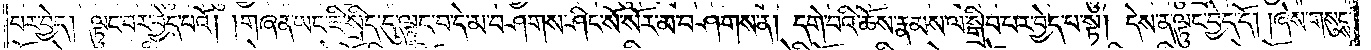པར་བྱེད། ལྟུང་བར་བྱེད་པའོ། །གཞན་ཡང་ཇི་སྲིད་དུ་ལྟུང་བ་དེ་མ་བཤགས་ཤིང་སོ་སོར་མ་བཤགས་ན། དགེ་བའི་ཆོས་རྣམས་ལ་སྒྲིབ་པར་བྱེད་པ་སྟེ། དེས་ན་ལྟུང་བྱེད་དོ། །ཞེས་གསུངས་
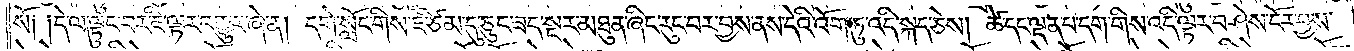སོ༑ ༑དེ་ལ་ལྟུང་བར་ཇི་ལྟར་འགྱུར་ཞེ་ན། དགེ་སློང་གིས་ཇི་ཙམ་དུ་ཅུང་ཟད་སྔར་མཐུན་ཞིང་རུང་བར་བྱས་ནས་དེའི་འོག་ཏུ་འདི་སྐད་ཅེས། ཚེ་དང་ལྡན་པ་དག་གིས་འདི་ལྟར་བཤེས་ངོར་བྱས་
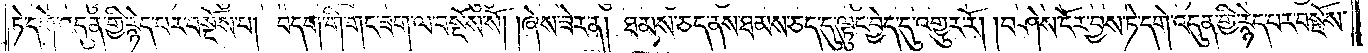ཏེ་དགེ་འདུན་གྱི་རྙེད་པར་བསྔོས་པ། བདག་གི་གང་ཟག་ལ་བསྔོས་སོ། །ཞེས་ཟེར་ན། ཐམས་ཅད་ནས་ཐམས་ཅད་དུ་ལྟུང་བྱེད་དུ་འགྱུར་རོ། །བཤེས་ནོར་བྱས་ཏེ་དགེ་འདུན་གྱི་རྙེད་པར་བསྔོས་
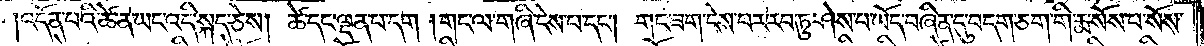།འདོན་པའི་ཚེ་ན་ཡང་འདི་སྐད་ཅེས། ཚེ་དང་ལྡན་པ་དག །གང་ལ་གཞི་ངེས་པ་དང༌། གང་ཟག་ངེས་པར་རབ་ཏུ་ཤེས་པ་ཡོད་བཞིན་དུ་བདག་ཅག་གི་རྨ་སོས་པ་སོས་
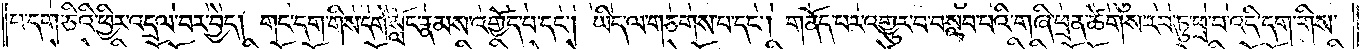པ་དག་ཅིའི་ཕྱིར་འདྲལ་བར་བྱེད། གང་དག་གིས་དགེ་སློང་རྣམས་འགྱོད་པ་དང༌། ཡིད་ལ་གཅགས་པ་དང༌། གནོད་པར་འགྱུར་བ་བསླབ་པའི་གཞི་ཕྲན་ཚེགས་རབ་ཏུ་ཕྲ་བ་འདི་དག་གིས་
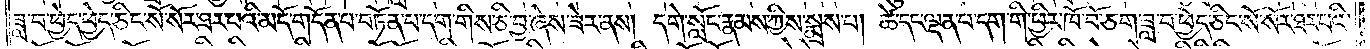ཟླ་བ་ཕྱེད་ཕྱེད་ཅིང་སོ་སོར་ཐར་པའི་མདོ་གདོན་པ་བཏོན་པ་དག་གིས་ཅི་བྱ་ཞེས་ཟེར་ནས། དགེ་སློང་རྣམས་ཀྱིས་སྨྲས་པ། ཚེ་དང་ལྡན་པ་དག་གི་ཕྱིར་ཁོ་བོ་ཅག་ཟླ་བ་ཕྱེད་ཅིང་སོ་སོར་ཐར་པའི་
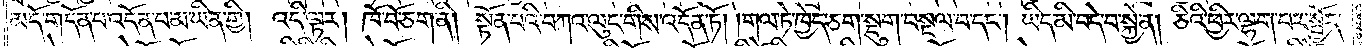མདོ་གདོན་པ་འདོན་པ་མ་ཡིན་གྱི། འདི་ལྟར། ཁོ་བོ་ཅག་ནི། སྟོན་པའི་བཀའ་ལུང་གིས་འདོན་ཏོ། །གལ་ཏེ་ཁྱེད་ཅག་སྡུག་བསྔལ་བ་དང༌། ཡིད་མི་བདེ་བ་སྐྱེ་ན། ཅིའི་ཕྱིར་ལྷག་པར་སྤྱོད་
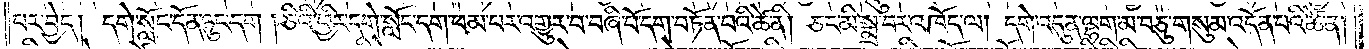པར་བྱེད། དགེ་སློང་དོན་ཉུང་དག །ཅིའི་ཕྱིར་དགེ་སློང་དག་ཕམ་པར་འགྱུར་བ་བཞི་པོ་དག་བཏོན་པའི་ཚེ་ནི། ཅང་མི་སྨྲ་བར་འཁོད་ལ། དགེ་འདུན་ལྷག་མ་བཅུ་གསུམ་འདོན་པའི་ཚེ་ན།
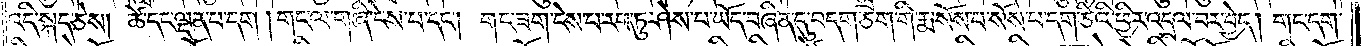འདི་སྐད་ཅེས། ཚེ་དང་ལྡན་པ་དག །གང་ལ་གཞི་ངེས་པ་དང༌། གང་ཟག་ངེས་པ་རབ་ཏུ་ཤེས་པ་ཡོད་བཞིན་དུ་བདག་ཅག་གི་རྨ་སོས་པ་སོས་པ་དག་ཅིའི་ཕྱིར་འདྲལ་བར་བྱེད། གང་དག་
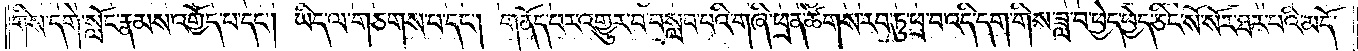གིས་དགེ་སློང་རྣམས་འགྱོད་པ་དང༌། ཡིད་ལ་གཅགས་པ་དང༌། གནོད་པར་འགྱུར་བ་བསླབ་པའི་གཞི་ཕྲན་ཚེགས་རབ་ཏུ་ཕྲ་བ་འདི་དག་གིས་ཟླ་བ་ཕྱེད་ཕྱེད་ཅིང་སོ་སོར་ཐར་པའི་མདོ་
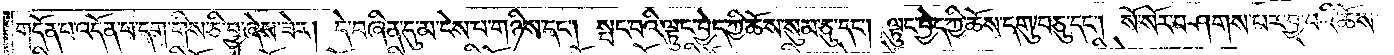གདོན་པ་འདོན་པ་དག་གིས་ཅི་བྱ་ཞེས་ཟེར། དེ་བཞིན་དུ་མ་ངེས་པ་གཉིས་དང༌། སྤང་བའི་ལྟུང་བྱེད་ཀྱི་ཆོས་སུམ་ཅུ་དང༌། ལྟུང་བྱེད་ཀྱི་ཆོས་དགུ་བཅུ་དང༌། སོ་སོར་བཤགས་པར་བྱ་བའི་ཆོས་
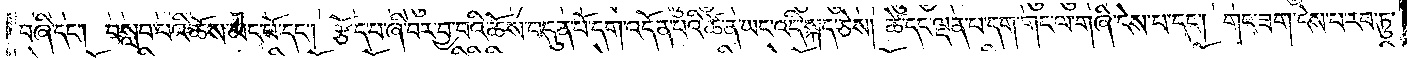བཞི་དང༌། བསླབ་པའི་ཆོས་མང་པོ་དང༌། རྩོད་པ་ཞི་བར་བྱ་བའི་ཆོས་བདུན་པོ་དག་འདོན་པའི་ཚེ་ན་ཡང་འདི་སྐད་ཅེས། ཚེ་དང་ལྡན་པ་དག་གང་ལ་གཞི་ངེས་པ་དང༌། གང་ཟག་ངེས་པ་རབ་ཏུ་
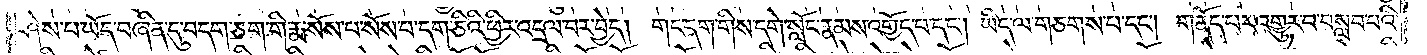ཤེས་པ་ཡོད་བཞིན་དུ་བདག་ཅག་གི་རྨ་སོས་པ་སོས་པ་དག་ཅིའི་ཕྱིར་འདྲལ་བར་བྱེད། གང་དག་གིས་དགེ་སློང་རྣམས་འགྱོད་པ་དང༌། ཡིད་ལ་གཅགས་པ་དང༌། གནོད་པར་འགྱུར་བ་བསླབ་པའི་
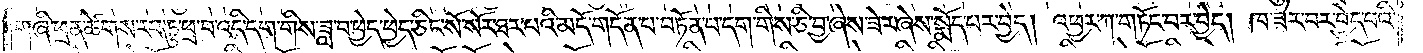གཞི་ཕྲན་ཚེགས་རབ་ཏུ་ཕྲ་བ་འདི་དག་གིས་ཟླ་བ་ཕྱེད་ཕྱེད་ཅིང་སོ་སོར་ཐར་པའི་མདོ་གདོན་པ་བཏོན་པ་དག་གིས་ཅི་བྱ་ཞེས་ཟེར་ཞེས་སྨོད་པར་བྱེད། འཕྱར་ཀ་གཏོང་བར་བྱེད། ཁ་ཟེར་བར་བྱེད་པའི་
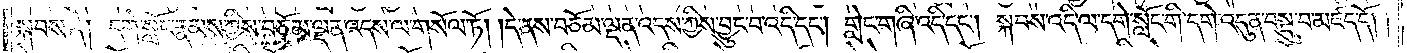སྐབས་དེ། དགེ་སློང་རྣམས་ཀྱིས་བཅོམ་ལྡན་འདས་ལ་གསོལ་ཏོ། །དེ་ནས་བཅོམ་ལྡན་འདས་ཀྱིས་བྱུང་བ་འདི་དང༌། གླེང་གཞི་འདི་དང༌། སྐབས་འདི་ལ་དགེ་སློང་གི་དགེ་འདུན་བསྡུ་བ་མཛད་དོ། །
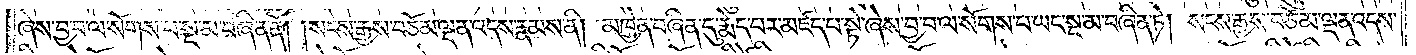ཞེས་བྱ་བ་ལ་སོགས་པ་སྔ་མ་བཞིན་ནོ། །སངས་རྒྱས་བཅོམ་ལྡན་འདས་རྣམས་ནི། མཁྱེན་བཞིན་དུ་རྨེད་པར་མཛད་པ་སྟེ་ཞེས་བྱ་བ་ལ་སོགས་པ་ཡང་སྔ་མ་བཞིན་ཏེ། སངས་རྒྱས་བཅོམ་ལྡན་འདས་
